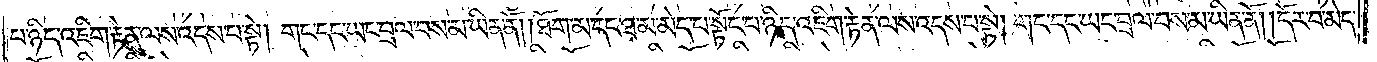པ་ཉིད་འཇིག་རྟེན་ལས་འདས་པ་སྟེ། གང་དང་ཡང་བྲལ་བས་མ་ཡིན་ནོ། །ཐོག་མ་དང་ཐ་མ་མེད་པ་སྟོང་པ་ཉིད་འཇིག་རྟེན་ལས་འདས་པ་སྟེ། གང་དང་ཡང་བྲལ་བས་མ་ཡིན་ནོ། །དོར་བ་མེད་
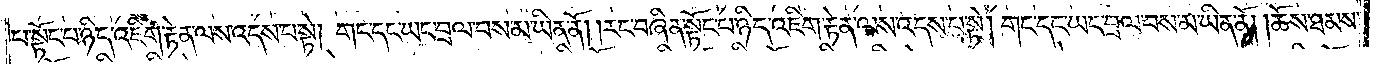པ་སྟོང་པ་ཉིད་འཇིག་རྟེན་ལས་འདས་པ་སྟེ། གང་དང་ཡང་བྲལ་བས་མ་ཡིན་ནོ། །རང་བཞིན་སྟོང་པ་ཉིད་འཇིག་རྟེན་ལས་འདས་པ་སྟེ། གང་དང་ཡང་བྲལ་བས་མ་ཡིན་ནོ། །ཆོས་ཐམས་
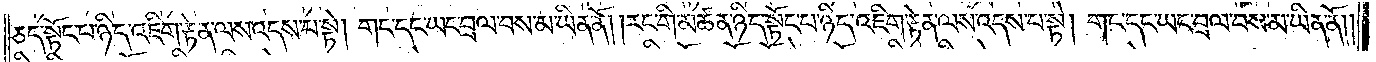ཅད་སྟོང་པ་ཉིད་འཇིག་རྟེན་ལས་འདས་པ་སྟེ། གང་དང་ཡང་བྲལ་བས་མ་ཡིན་ནོ། །རང་གི་མཚན་ཉིད་སྟོང་པ་ཉིད་འཇིག་རྟེན་ལས་འདས་པ་སྟེ། གང་དང་ཡང་བྲལ་བས་མ་ཡིན་ནོ། །
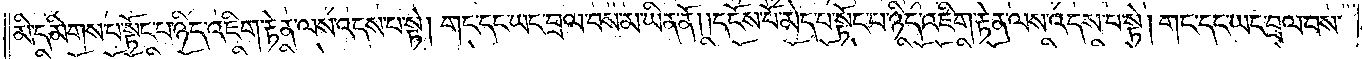མི་དམིགས་པ་སྟོང་པ་ཉིད་འཇིག་རྟེན་ལས་འདས་པ་སྟེ། གང་དང་ཡང་བྲལ་བས་མ་ཡིན་ནོ། །དངོས་པོ་མེད་པ་སྟོང་པ་ཉིད་འཇིག་རྟེན་ལས་འདས་པ་སྟེ། གང་དང་ཡང་བྲལ་བས་
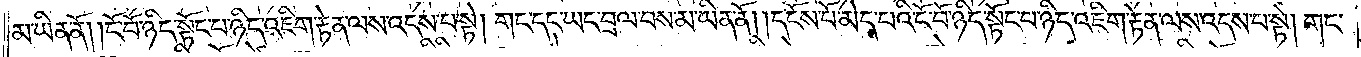མ་ཡིན་ནོ། །ངོ་བོ་ཉིད་སྟོང་པ་ཉིད་འཇིག་རྟེན་ལས་འདས་པ་སྟེ། གང་དང་ཡང་བྲལ་བས་མ་ཡིན་ནོ། །དངོས་པོ་མེད་པའི་ངོ་བོ་ཉིད་སྟོང་པ་ཉིད་འཇིག་རྟེན་ལས་འདས་པ་སྟེ། གང་
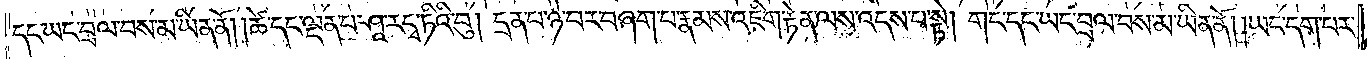དང་ཡང་བྲལ་བས་མ་ཡིན་ནོ། །ཚེ་དང་ལྡན་པ་ཤཱ་ར་དྭ་ཏིའི་བུ། དྲན་པ་ཉེ་བར་བཞག་པ་རྣམས་འཇིག་རྟེན་ལས་འདས་པ་སྟེ། གང་དང་ཡང་བྲལ་བས་མ་ཡིན་ནོ། །ཡང་དག་པར་
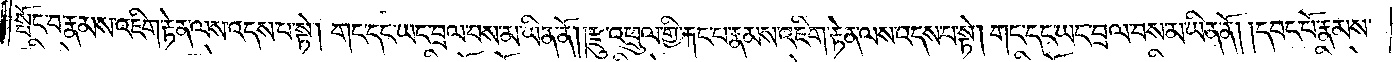སྤོང་བ་རྣམས་འཇིག་རྟེན་ལས་འདས་པ་སྟེ། གང་དང་ཡང་བྲལ་བས་མ་ཡིན་ནོ། །རྫུ་འཕྲུལ་གྱི་རྐང་པ་རྣམས་འཇིག་རྟེན་ལས་འདས་པ་སྟེ། གང་དང་ཡང་བྲལ་བས་མ་ཡིན་ནོ། །དབང་པོ་རྣམས་
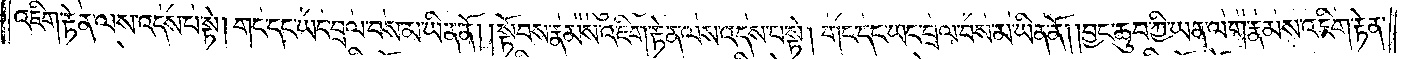འཇིག་རྟེན་ལས་འདས་པ་སྟེ། གང་དང་ཡང་བྲལ་བས་མ་ཡིན་ནོ། །སྟོབས་རྣམས་འཇིག་རྟེན་ལས་འདས་པ་སྟེ། གང་དང་ཡང་བྲལ་བས་མ་ཡིན་ནོ། །བྱང་ཆུབ་ཀྱི་ཡན་ལག་རྣམས་འཇིག་རྟེན་
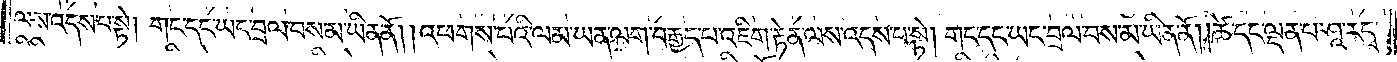ལས་འདས་པ་སྟེ། གང་དང་ཡང་བྲལ་བས་མ་ཡིན་ནོ། །འཕགས་པའི་ལམ་ཡན་ལག་བརྒྱད་པ་འཇིག་རྟེན་ལས་འདས་པ་སྟེ། གང་དང་ཡང་བྲལ་བས་མ་ཡིན་ནོ། །ཚེ་དང་ལྡན་པ་ཤཱ་ར་དྭ་
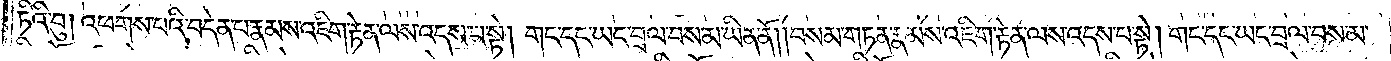ཏིའི་བུ། འཕགས་པའི་བདེན་པ་རྣམས་འཇིག་རྟེན་ལས་འདས་པ་སྟེ། གང་དང་ཡང་བྲལ་བས་མ་ཡིན་ནོ། །བསམ་གཏན་རྣམས་འཇིག་རྟེན་ལས་འདས་པ་སྟེ། གང་དང་ཡང་བྲལ་བས་མ་
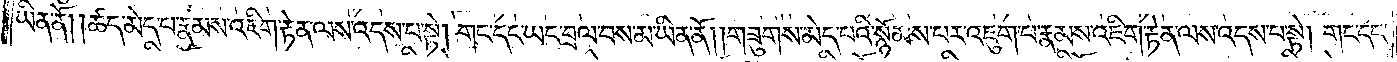ཡིན་ནོ། །ཚད་མེད་པ་རྣམས་འཇིག་རྟེན་ལས་འདས་པ་སྟེ། གང་དང་ཡང་བྲལ་བས་མ་ཡིན་ནོ། །གཟུགས་མེད་པའི་སྙོམས་པར་འཇུག་པ་རྣམས་འཇིག་རྟེན་ལས་འདས་པ་སྟེ། གང་དང་
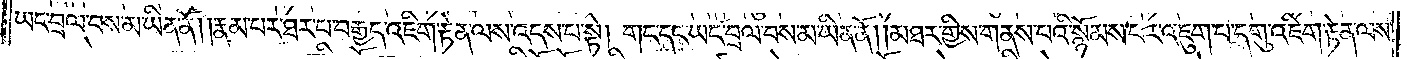ཡང་བྲལ་བས་མ་ཡིན་ནོ། །རྣམ་པར་ཐར་པ་བརྒྱད་འཇིག་རྟེན་ལས་འདས་པ་སྟེ། གང་དང་ཡང་བྲལ་བས་མ་ཡིན་ནོ། །མཐར་གྱིས་གནས་པའི་སྙོམས་པར་འཇུག་པ་དགུ་འཇིག་རྟེན་ལས་
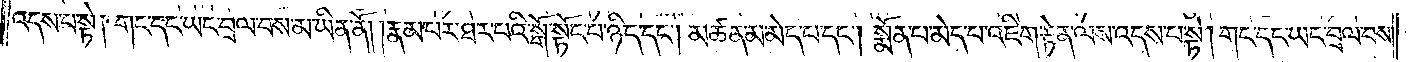འདས་པ་སྟེ། གང་དང་ཡང་བྲལ་བས་མ་ཡིན་ནོ། །རྣམ་པར་ཐར་པའི་སྒོ་སྟོང་པ་ཉིད་དང༌། མཚན་མ་མེད་པ་དང༌། སྨོན་པ་མེད་པ་འཇིག་རྟེན་ལས་འདས་པ་སྟེ། གང་དང་ཡང་བྲལ་བས་
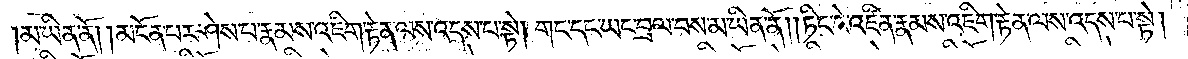མ་ཡིན་ནོ། །མངོན་པར་ཤེས་པ་རྣམས་འཇིག་རྟེན་ལས་འདས་པ་སྟེ། གང་དང་ཡང་བྲལ་བས་མ་ཡིན་ནོ། །ཏིང་ངེ་འཛིན་རྣམས་འཇིག་རྟེན་ལས་འདས་པ་སྟེ།
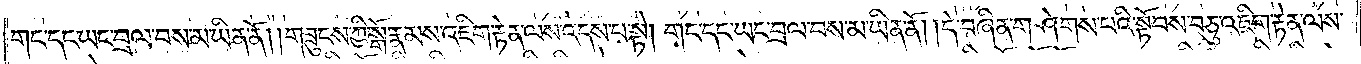གང་དང་ཡང་བྲལ་བས་མ་ཡིན་ནོ། །གཟུངས་ཀྱི་སྒོ་རྣམས་འཇིག་རྟེན་ལས་འདས་པ་སྟེ། གང་དང་ཡང་བྲལ་བས་མ་ཡིན་ནོ། །དེ་བཞིན་གཤེགས་པའི་སྟོབས་བཅུ་འཇིག་རྟེན་ལས་
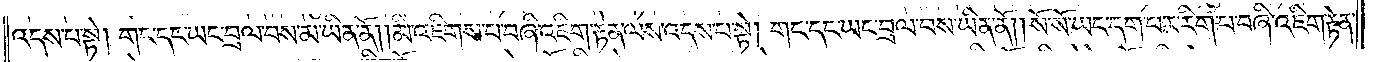འདས་པ་སྟེ། གང་དང་ཡང་བྲལ་བས་མ་ཡིན་ནོ། །མི་འཇིགས་པ་བཞི་འཇིག་རྟེན་ལས་འདས་པ་སྟེ། གང་དང་ཡང་བྲལ་བས་མ་ཡིན་ནོ། །སོ་སོ་ཡང་དག་པར་རིག་པ་བཞི་འཇིག་རྟེན་
